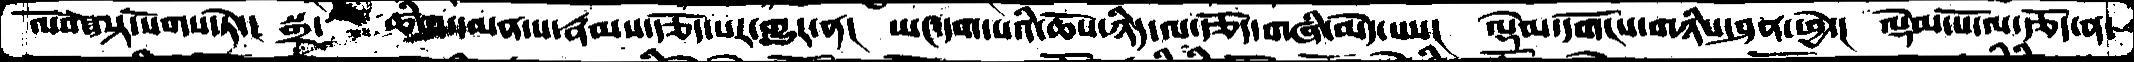ལོག་ལྟ་སོགས་ཏེ་། སྒྲ་  ཚིག་དམན་པ་རྣམས་རྩོད་པར་གྱུར་ན། ཡང་དག་པའི་ཆོས་ཉིད་ལ་རྩོད་གཞི་མེད་པས། ལྡེམ་དགོངས་གཉིས་ཤན་ཕྱེ་། ལྡེམ་པོ་ལ་རྩོད་ན་
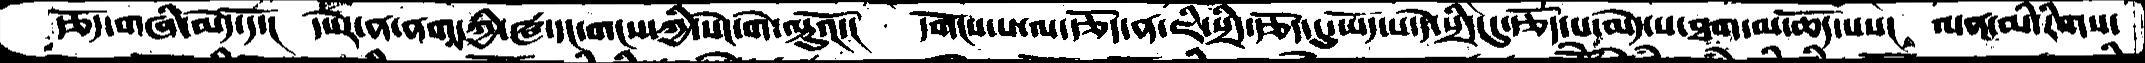རྩོད་གཞི་མེད་དོ་། དཔེར་ན་ནགས་ཀྱི་ཝ་དང་གངས་ཀྱི་སེང་གེ་ལྟུའོ་། དགོངས་པ་ལ་རྩོད་ན་ཇི་སྲིད་རྩོད་དུ་ཡོད་པ་དེ་སྲིད་དུ་རྩོད་པ་མེད་པ་ཐག་མ་ཆོད་པས།  ལན་མི་རིགས་
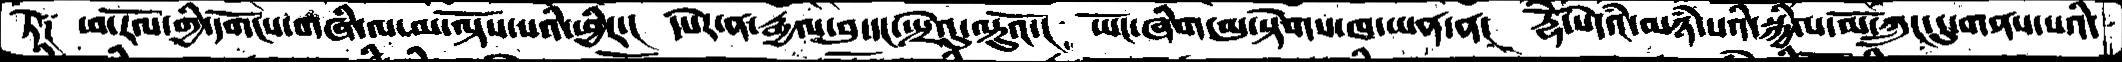ཏེ༑  ཕ་རོལ་གྱི་དགོངས་གཞི་ལ་མ་ལྟོས་པའི་ཕྱིར་།  དཔེར་ན་རྒྱལ་བུ་དང་སྤྲེའུ་ལྟུའོ་།  ཡོང་ཞིག་མུ་སྟེགས་ཁ་ཡན་ན།  རྡོེ་སེཾདའ་མཉཾ་པའི་སྐྱིལ་མོ་ཀྲུང་དུ་གནས་པའི་
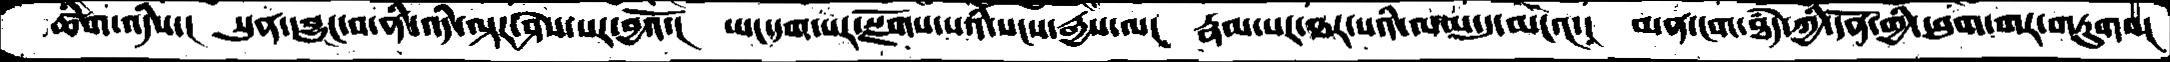ཚིག་འདིས་།  སུན་དབྱུང་བ་ནི་འདི་ལྟར་ཤེས་པར་བྱའོ་།  ཡང་དག་པར་སྫོགས་པའི་སངས་རྒྱས་ལ།  རྣམ་པར་ཐར་པའི་ལམ་དུ་མངའ་།  མན་ངག་ཐདཾ་ཀྱི་དོན་གྱི་ཕུག་གར་གཏུགས།
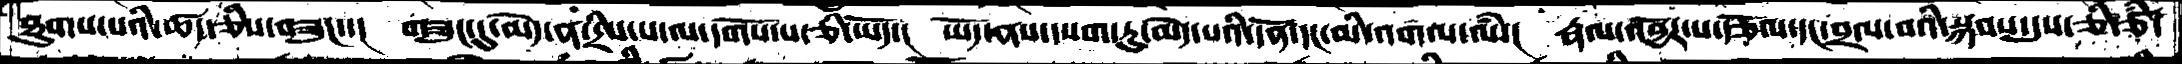ཐུགས་པའི་ཚད་ཅིས་བཟུང་་།  གཟུང་དུ་མེད་ན་དྲིས་པ་ལ་དགོས་པ་ཅི་ཡོད་།  ཡོད་ནས་དཔག་ཏུ་མེད་པའི་དོན་དང་མི་འགལ་ལཾ་།  རྣལ་འབྱོར་པ་རྩོལ་དང་བྲལ་བའི་སྐབས་དུས་ཅི་ཙཾ་
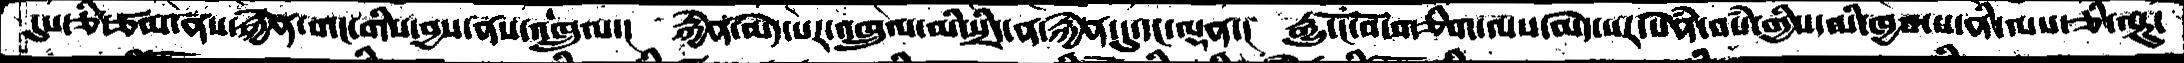དུས་ཅི་ཙམ་ནས་རྐྱེན་གང་གིས་བྱས་ནས་འཁྲུལ་།  རྐྱེན་མེད་པར་འཁྲུལ་མི་སྲིད་ན་རྐྱེན་དུ་དང་ལྡན་།  རྒྱུ་ངོ་བོ་གཅིག་ལས་མེད་པར་སེཾན་བསཾ་གྱིས་མི་ཁྱབ་པ་ནི་ལས་ཅི་ལྟུ་
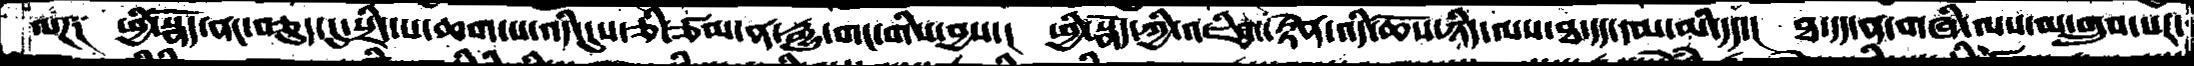ལཌ༑  ཕྱི་སྣོད་ནང་བཅུད་དུ་སྲིད་པ་ཆག་པ་འདི་དུས་ཅི་ཙམ་ན་རྒྱུ་གང་གིས་བྱས་།  ཕྱི་སྣོད་ཀྱི་འཇིག་རྟེན་འདི་ཆོས་ཉིད་ལས་ཐ་དད་དམ་མི་དད་།  ཐ་དད་ན་གཞི་ལས་མ་གྲུབ་པར་
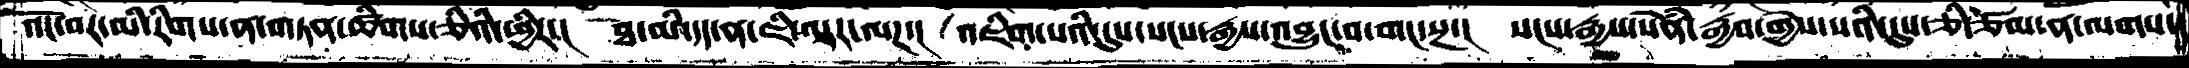འོང་བར་མི་རིགས་ན་གཏན་ཚིགས་ཅིའི་ཕྱིར་།  ཐ་མི་དད་ན་ཇི་ལྟར་ལཌ་།  འཇིག་པའི་དུས་སངས་རྒྱས་འབྱུང་བ་གང་སྔ་།  སངས་རྒྱས་སེཾན་རྒྱབ་གྱེས་པའི་དུས་ཅི་ཙམ་ན་ལགས་
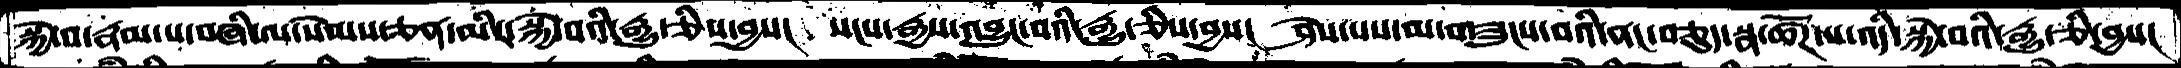སྐྱེ་བ་རྣམ་པ་བཞི་ལ་སེམས་ཅན་མི་སྐྱེ་བའི་རྒྱུ་ཅིས་བྱས།   སངས་རྒྱས་འབྱུང་བའི་རྒྱུ་ཅིས་བྱས།  ཤེས་པས་མ་གཟུངས་བའི་ནང་བཅུད་སྣ་ཚོཌ་པ་འདི་སྐྱེ་བའི་རྒྱུ་ཅི་བྱས།
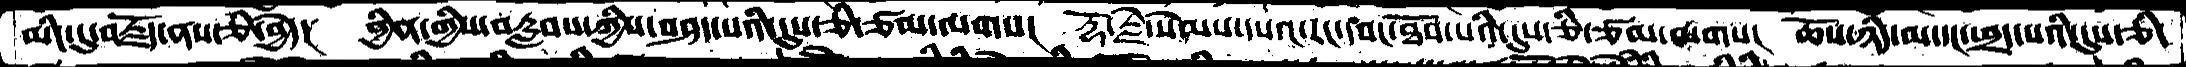མིང་དུ་བརྗོད་ནས་ཅི་བྱེད།  བྱིན་གྱིས་བརླབས་ཀྱིས་བཤད་པའི་དུས་ཅི་ཙམ་ལགས།  རྡོ་རྗེ་སེམས་དཔའ་རང་དབང་ཐོབ་པའི་དུས་ཅི་ཙམ་ལགས།  ཆོས་ཉིད་མ་དང་ཕྲད་པའི་དུས་ཅི་
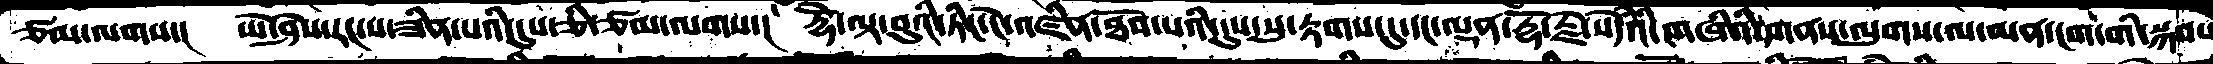ཙམ་ལགས་།  ཡེ་ཤེས་རང་ས་ཟིན་པའི་དུས་ཅི་ཙམ་ལགས་།  རྡོེ་ལྟ་བུའི་ཏིང་ངེ་འཛིན་ཐོབ་པའི་དུས་སུ་རྟགས་དུ་དང་ལྡན་རྡོ་རྗེ་སེཾདའ་གཞིའི་གནས་ལུགས་ལ་མན་ངག་གི་སྐབས
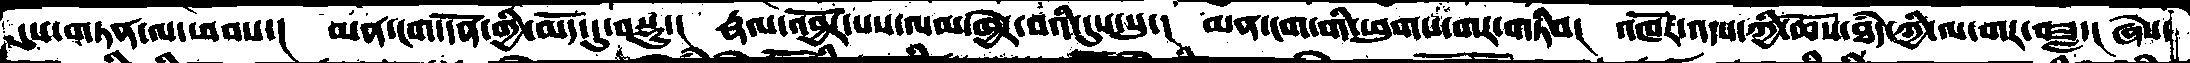དུས་གཏན་ལ་ཕབས་།   མན་ངག་དོན་གྱི་མདོ་དུ་བསྡུ་།  རྣལ་འབྱོར་པས་ལམ་ཁྱེར་བའི་དུས་སུ་།   མན་ངག་གི་ཕུགས་གར་གཏིབ་།  འཁོར་འདས་ཀྱི་ཆོས་ཐཾད་ཀྱི་ལ་གར་བཟླ་།  ཞེས་
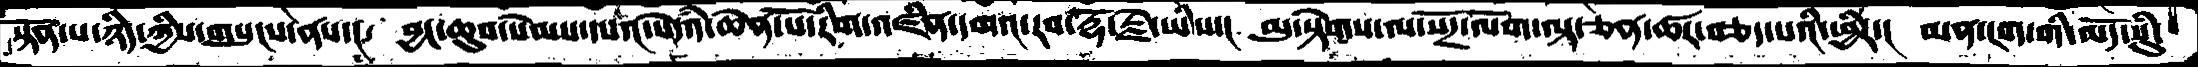སྟོན་པ་ཉིད་ཀྱིས་གསུངས་ནས་།  བྱང་ཆུབ་སེམས་དཔའ་སེཾདའ་ཆེན་པོ་རིག་འཛིན་དགའ་རབ་རྡོ་རྗེ་ཡིས་།  མུ་སྟེགས་ལ་སོཌ་ལོག་ལྟ་ཅན་ཚར་བཅད་པའི་ཕྱིར་།  མན་ངག་གི་མདོ་སུཾ་
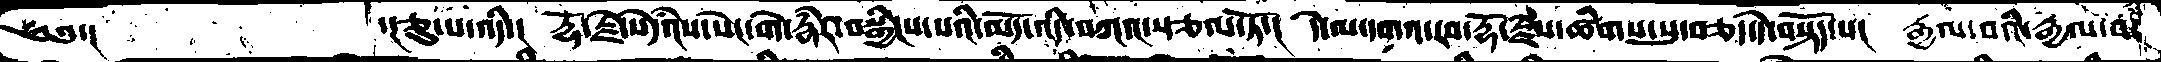༄༅་།       ་།ཅུ་པ་འདི་།  རྡོ་རྗེ་སེདཾའས་སེང་གེ་རྣཾར་བསྒྱིངས་པའི་མདོ་འདི་བཀའ་སྩལ་ཏོ་། དེ་ལ་དགའ་རབ་རྡོ་རྗེས་ཚིགས་སུ་བཅད་དེ་བསྟོད་པ།  རྒྱལ་བའི་རྒྱལ་བ་
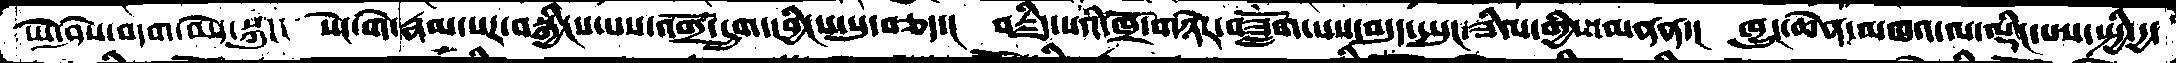ཡེ་ཤེས་བདག་མེད་སྐུ་།  སེང་གེ་རྣམ་པར་བསྒྱིངས་པས་འགྲོ་དྲུག་དབྱིངས་སུ་བཅད་།  བརྗིད་པའི་ཁྲོ་གཉེར་བཟློག་པས་བདུད་དཔུང་ཟིལ་གྱིས་མནན་།  ཁྱུང་ཆེན་མཁའ་ལ་ལྡིང་པས་སྤྱི་དྱ་
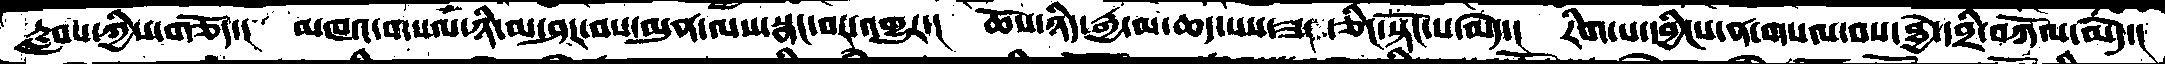རླབས་ཀྱིས་གཅོད་།  མཁའ་གསལ་ཉི་མ་ཤར་བས་མུན་ལས་སྣང་བར་འགྱུར་།  ཆོས་ཉིད་རྒྱ་མ་ཆད་པས་ཟད་ཅིང་སྟོང་པ་མེད་།  རིག་པ་དབྱིངས་ན་གསལ་བས་ཐྱེ་དབྲི་བཀོལ་མེད་།
